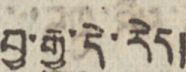བྱ་རྒྱུ་དེ་རེད།
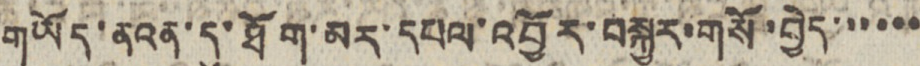གཡོད་ནའན་དུ་ཐོག་མར་དཔལ་འབྱོར་བསྐྱར་གསོ་བྱེད་་་་་་
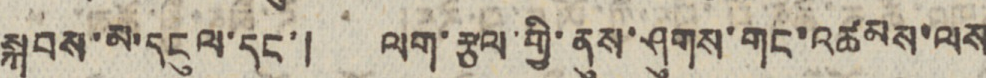སྐབས་མ་དངུལ་དང་། ལག་རྩལ་གྱི་ནུས་ཤུགས་གང་འཚབས་ལས
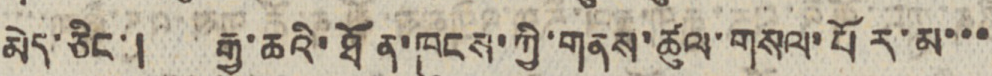མེད་ཅིང་། རྒྱུ་ཆའི་ཐོན་ཁུངས་ཀྱི་གནས་ཚུལ་གསལ་པོར་མ་་་
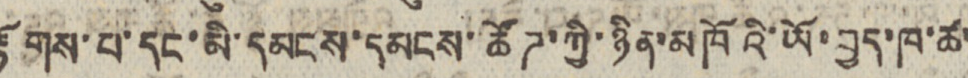རྟོགས་པ་དང་མི་དམངས་དམངས་ཚོཊ་ཀྱི་ཉིན་མཁོའི་ཡོ་བྱད་ཁ་ཚ་
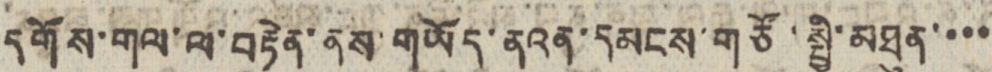དགོས་གལ་ལ་བརྟེན་ནས་གཡོད་ནའན་དམངས་གཙོ་སྤྱི་མཐུན་་་་
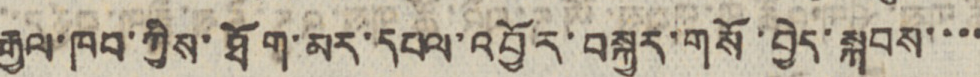རྒྱལ་ཁབ་ཀྱིས་ཐོག་མར་དཔལ་འབྱོར་བསྐྱར་གསོ་བྱེད་སྐབས་་་་
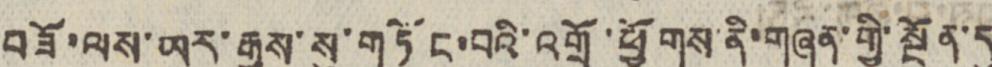བཟོ་ལས་ཡར་རྒྱས་སུ་གཏོང་བའི་འགྲོ་ཕྱོགས་ནི་གཞན་གྱི་སྔོན་དུ
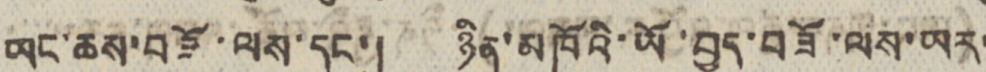ཡང་ཆས་བཟོ་ལས་དང་། ཉིན་མཁོའི་ཡོ་བྱད་བཟོ་ལས་ཡར་
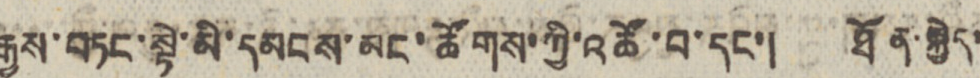རྒྱས་བཏང་སྟེ་མི་དམངས་མང་ཚོགས་ཀྱི་འཚོ་བ་དང་། ཐོན་སྐྱེད་
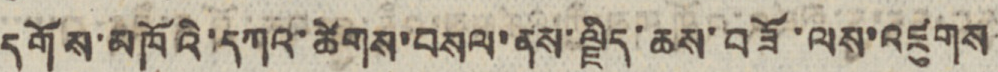དགོས་མཁོའི་དཀའ་ཚེགས་བསལ་ནས་ལྗིད་ཆས་བཟོ་ལས་འཛུགས
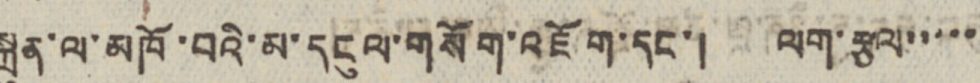སྐྲུན་ལ་མཁོ་བའི་མ་དངུལ་གསོག་འཇོག་དང་། ལག་རྩལ་་་་་
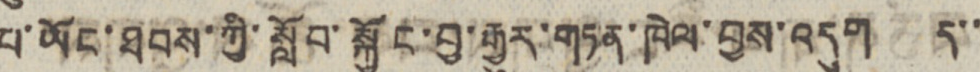པ་ཡོང་ཐབས་ཀྱི་སློབ་སྐྱོང་བྱ་རྒྱུར་གཏན་ཁེལ་བྱས་འདུག ད་་
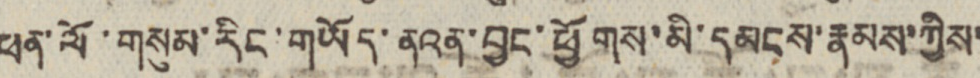ཕན་ལོ་གསུམ་རིང་གཡོད་ནའན་བྱང་ཕྱོགས་མི་དམངས་རྣམས་ཀྱིས་
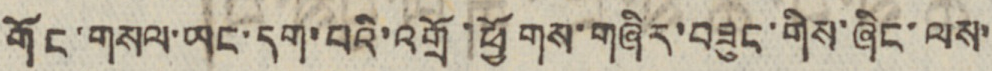གོང་གསལ་ཡང་དག་པའི་འགྲོ་ཕྱོགས་གཞིར་བཟུང་གིས་ཞིང་ལས་
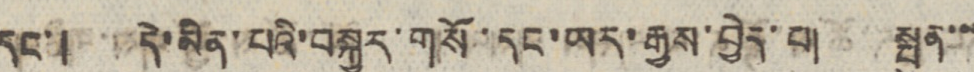དང་། དེ་མིན་པའི་བསྐྱར་གསོ་དང་ཡར་རྒྱས་བྱེད་པ། སྤུན་་་
